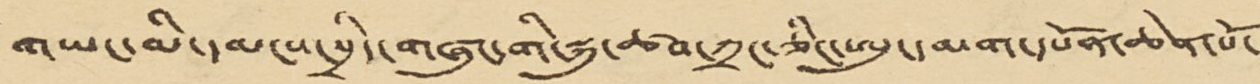གཡང་མི་དམངས་སྲིད་གཞུང་གི་སྐུ་ཚབ་ཀྲང་ཅིང་ཨུང་དམག་དཔོན་ཆེན་པོ་
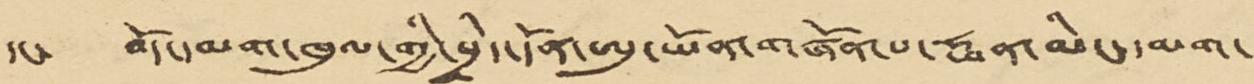དང་ བོད་དམག་ཁུལ་གྱི་སྲིད་དོན་ཨུ་ཡོན་གཞོན་པ་ཧྥན་མིང་དམག་
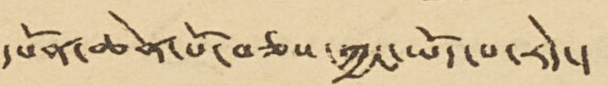དཔོན་ཆེན་པོ་བཅས་ཀྱང་ཡོད་པ་རེད་།
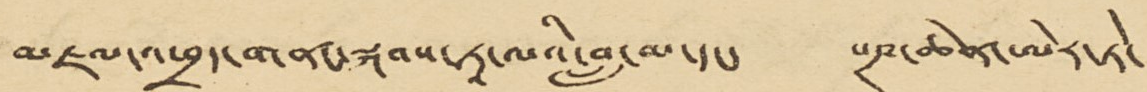མཇལ་འཕྲད་གནང་སྐབས་ཏཱ་ལའི་བླ་མ་དང་ པཎ་ཆེན་ཨེར་ཏེ་
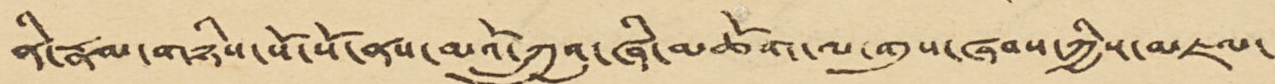ནི་རྣམ་གཉིས་སོ་སོ་ནས་མའོ་ཀྲུའུ་ཞི་མཆོག་ལ་གུས་ཞབས་ཀྱིས་མཇལ་
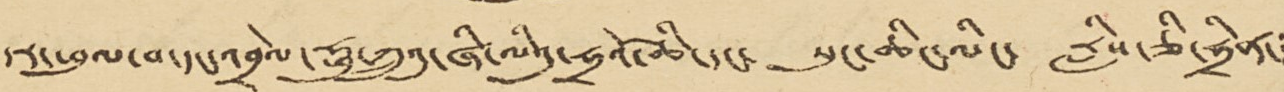དར་ཕུལ་བ་དང་འབྲེལ་ཧྥུ་ཀྲུའུ་ཞི་ལིའུ་ཧྲའོ་ཆིང་དང་ སུང་ཆིང་ལིང་ རླིས་ཅི་ཧྲིན་།
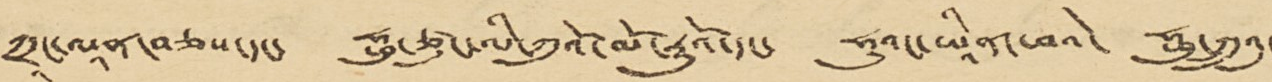ཀྲཱང་ལཱན་བཅས་དང་ ཧྥུ་ཙུང་ལི་ཀུའོ་མོ་རུའོ་དང་ ཧུའང་ཡཱིན་ཕའེ་ ཧྥུ་ཀྲུའུ་
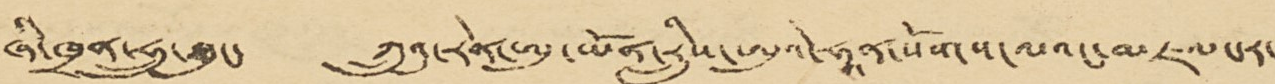ཞི་ཁྲན་ཧྲུ་ཐུང་ ཀྲུའུ་རེན་ཨུ་ཡོན་རླིས་ཨུའེ་ཧཱན་སོགས་ལའང་མཇལ་དར་
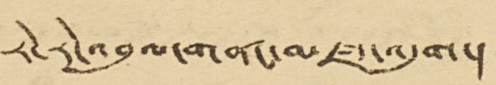རེ་རེ་འབུལ་གནང་མཛད་འདུག་།
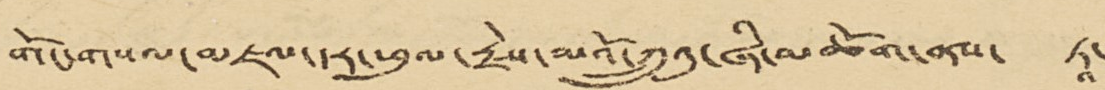གོང་གསལ་མཇལ་དར་ཕུལ་རྗེས་མའོ་ཀྲུའུ་ཞི་མཆོག་ནས་ ཏཱ་
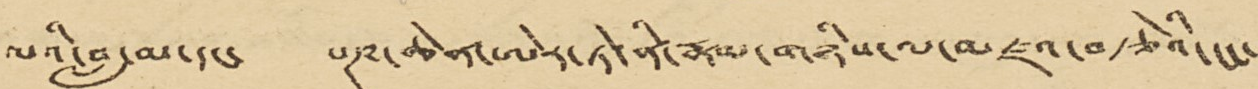ལའི་བླ་མ་དང་ པཎ་ཆེན་ཨེར་ཏེ་ནི་རྣམ་གཉིས་ལ་མཛའ་བརྩེའི་ངང་
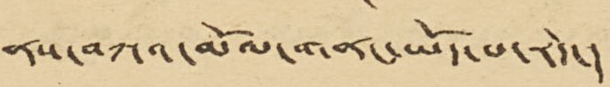ནས་བཀའ་མོལ་གནང་ཡོད་པ་རེད་།
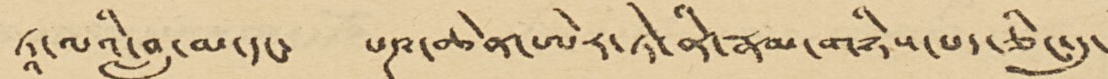ཏཱ་ལའི་བླ་མ་དང་ པཎ་ཆེན་ཨེར་ཏེ་ནི་རྣམ་གཉིས་པད་ཅིང་དུ་
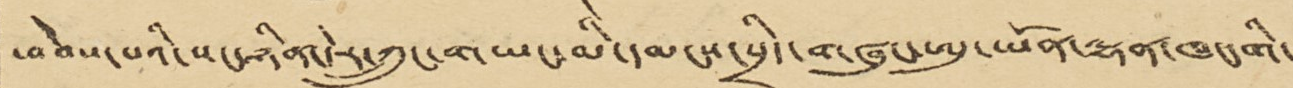ཕེབས་པའི་སང་ཉིན་དེར་ཀྲུང་གཡང་མི་དམངས་སྲིད་གཞུང་ཨུ་ཡོན་ལྷན་ཁང་གི་
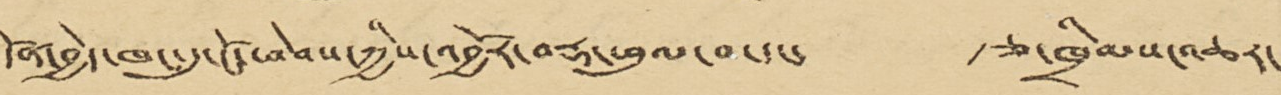དོན་བྱེད་ཁང་དུ་ངོ་ཕེབས་ཀྱིས་འབྱོར་བརྡ་ཕུལ་བ་དང་ རྩ་ཁྲིམས་འཆར་
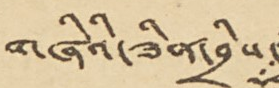གཞིའི་ཟིན་བྲིས་
